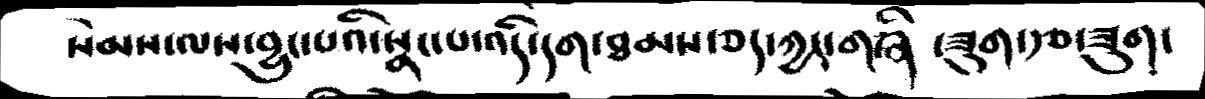སེམས་ལས་བྱུང་པའི་སྣང་པ་འདི་དག་ཐམས་ཅད་ཀྱང་གཞི་ཟུག་རྩ་ཟུག་
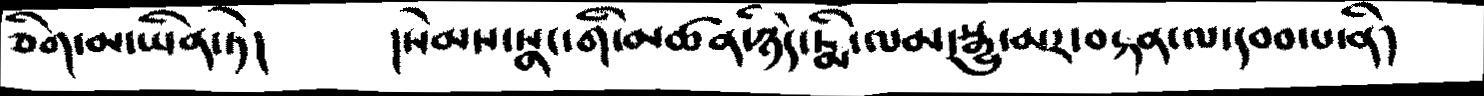ཅིག་མ་ཡིན་ཏེ།   །སེམས་སྣང་གི་མཚན་ཉིད་རྨི་ལམ་སྒྱུ་མར་བརྟན་ལ་དབབ་པ་ནི།
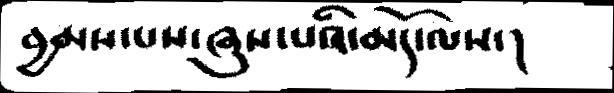བྱམས་པས་ཞུས་པའི་མདོ་ལས་།
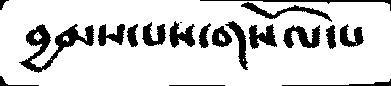བྱམས་པས་གསོལ་པ
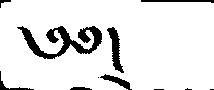༄༅།
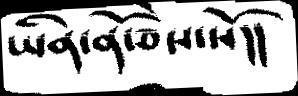ཡིན་ནོ་ཅེས་སོ།།
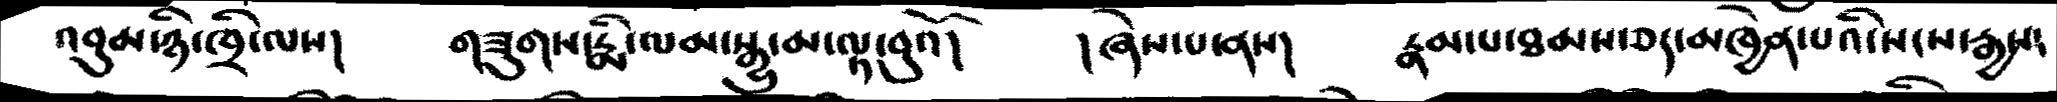འབུམ་ཉི་ཁྲི་ལས།   གཟུགས་རྨི་ལམ་སྒྱུ་མ་ལྟ་བུའོ།   །ཞེས་པ་ནས།  རྣམ་པ་ཐམས་ཅད་མཁྱེན་པའི་སངས་རྒྱས་
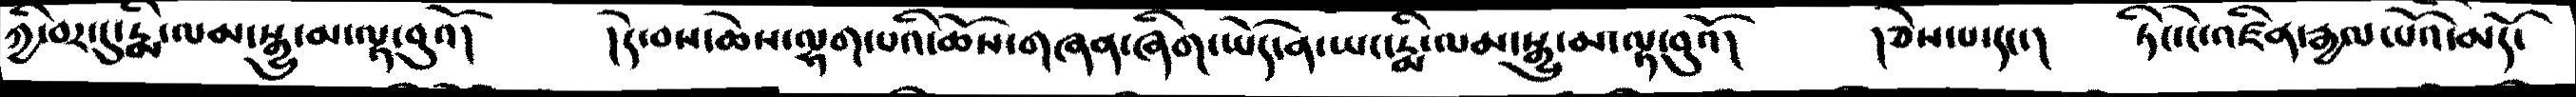ཀྱི་བར་དུ་རྨི་ལམ་སྒྱུ་མ་ལྟ་བུའོ།   །དེ་བས་ཆེས་ལྷག་པའི་ཆོས་གཞན་ཞིག་ཡོད་ན་ཡང་རྨི་ལམ་སྒྱུ་མ་ལྟ་བུའོ།  །ཅེས་པ་དང་།  ཏིང་ངེ་འཛིན་རྒྱལ་པོའ་མདོ་
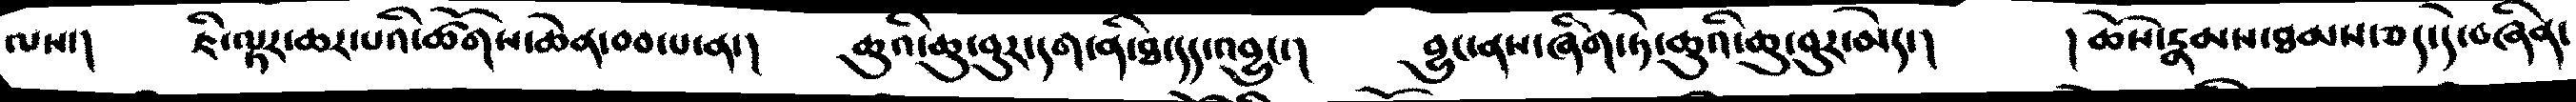ལས་།   ཇི་ལྟར་ཆར་པའི་ཚོགས་ཆེན་བབ་པ་ན་།  ཆུའི་ཆུ་བུར་དག་ནི་ཐ་དད་འབྱུང་།   བྱུང་ནས་ཞིག་ཏེ་ཆུའི་ཆུ་བུར་མེད་།  །ཆོས་རྣམས་ཐམས་ཅད་དེ་བཞིན་
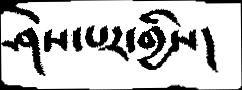ཤེས་པར་གྱིས།
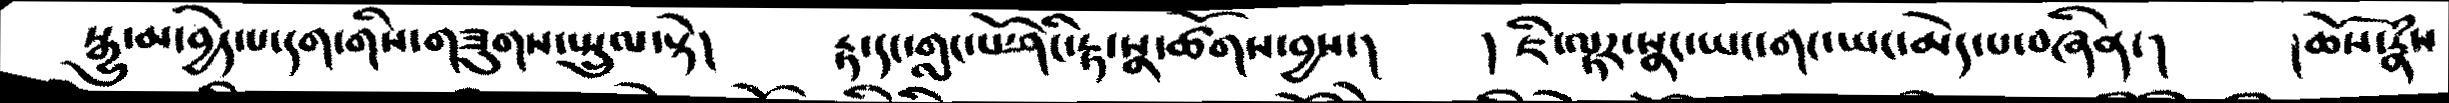སྒྱུ་མ་བྱེད་པ་དག་གིས་གཟུགས་སྤུལ་སྟེ།   རྟ་དང་གླང་པོ་ཤིང་རྟ་སྣ་ཚོགས་བྱས་།  །ཇི་ལྟར་སྣང་ཡང་གང་ཡང་མེད་པ་བཞིན་།   །ཆོས་རྣཾས
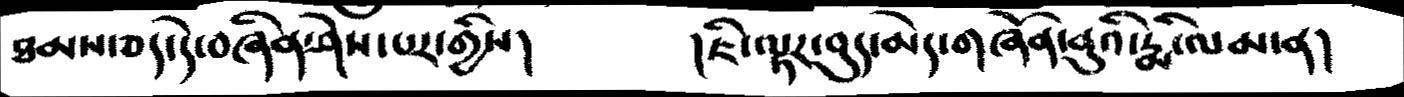ཐམས་ཅད་དེ་བཞིན་ཤེས་པར་གྱིས།       །ཇི་ལྟར་བུད་མེད་གཞོན་ནུའི་རྨི་ལམ་ན།
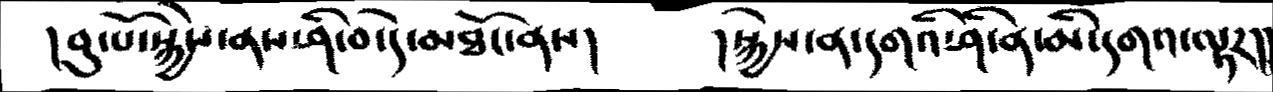དབུ་པོ་སྐྱེས་ནས་ཤི་བ་དེ་མཐོང་ནས།  །སྐྱེས་ན་དགའི་ཤི་ན་མི་དགའ་ལྟར།།
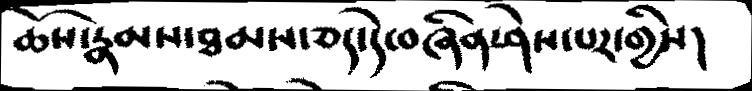ཆོས་རྣམས་ཐམས་ཅད་དེ་བཞིན་ཤེས་པར་གྱིས།
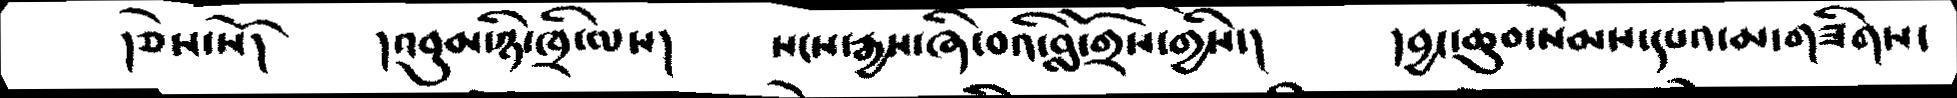།ཅེས་སོ།   །འབུམ་ཉི་ཁྲི་ལས།   སངས་རྒྱས་ཞི་བའི་བློ་གྲོས་གྱིས་།  །བྱང་ཆུབ་སེམས་དཔའ་མ་གཟིགས་
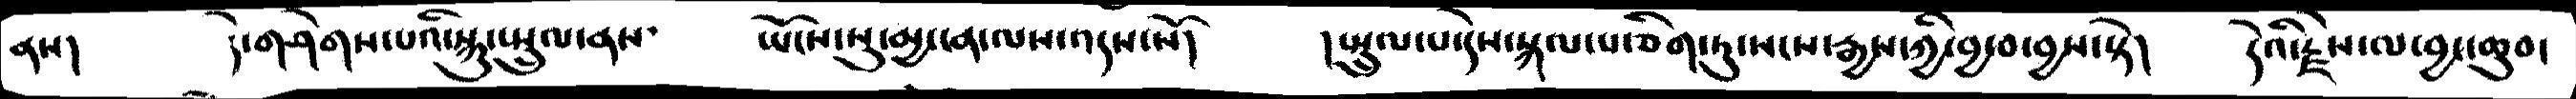ནས།     དེ་གཤེགས་པའི་སྐུ་སྤྲུལ་ནས་   ཡོངས་སུ་མྱ་ངན་ལས་འདས་སོ།    །སྤྲུལ་པ་དེས་སྐལ་པ་ཅིག་ཏུ་སངས་རྒྱས་ཀྱི་བྱ་བ་བྱས་སྟེ།  དེའི་རྗེས་ལ་བྱང་ཆུབ་
